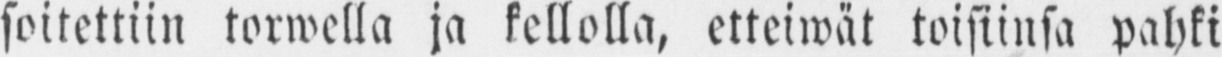soitettiin torwella ja kellolla, etteiwät toisiinsa pahki
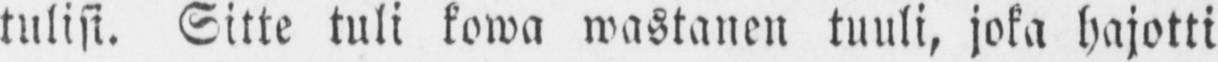tulisi. Sitte tuli kowa wastanen tuuli, joka hajotti
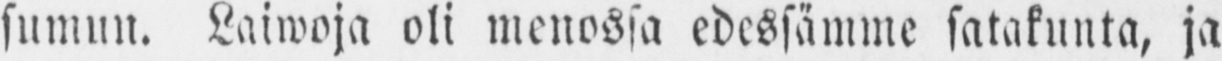sumun. Laiwoja oli menossa edessämme satakunta, ja
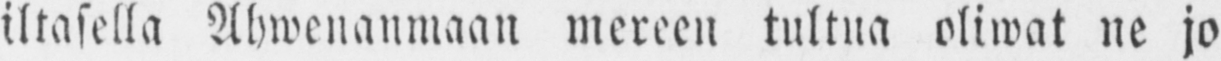iltasella Ahwenanmaan mereen tultua oliwat ne jo
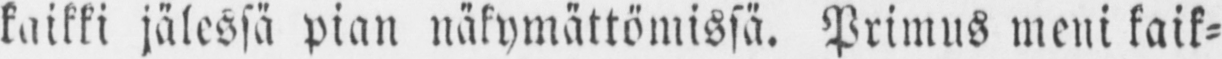kaikki jälessä pian näkymättömissä. Primus meni kaik-
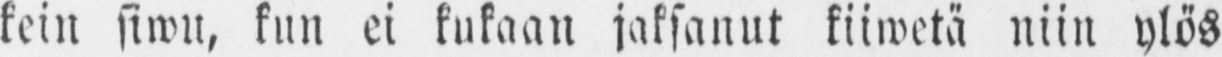kein siwu, kun ei kukaan jaksanut kiiwetä niin ylös
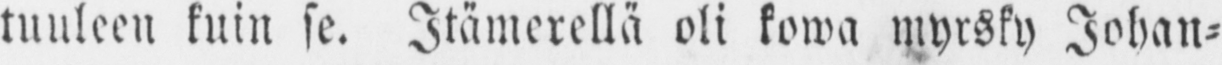tuuleen kuin se. Itämerellä oli kowa myrsky Johan-
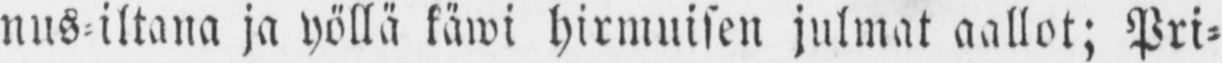nus-iltana ja yöllä käwi hirmuisen julmat aallot; Pri-
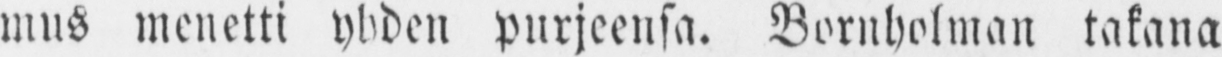mus menetti yhden purjeensa. Bornholman takana
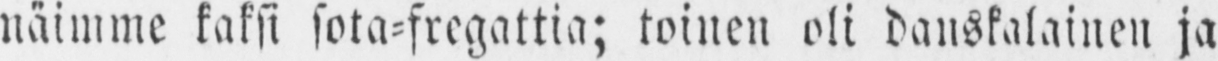näimme kaksi sota-fregattia; toinen oli danskalainen ja
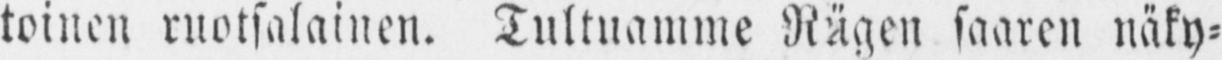toinen ruotsalainen. Tultuamme Rägen saaren näky-
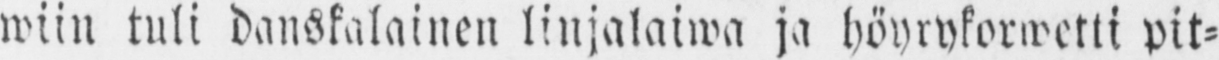wiin tuli danskalainen linjalaiwa ja höyrykorwetti pit-
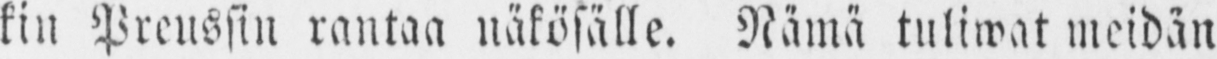kin Preussin rantaa näkösälle. Nämä tuliwat meidän
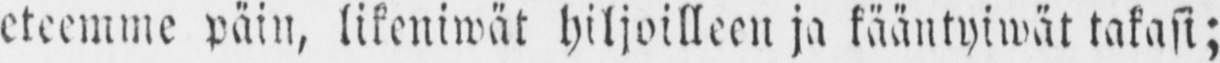eteemme päin, likeniwät hiljoilleen ja kääntyiwät takasi;
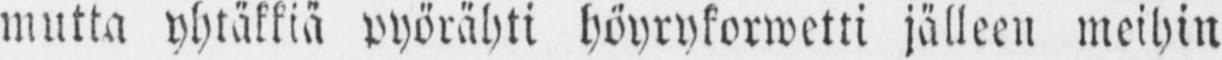mutta yhtäkkiä pyörähti höyrykorwetti jälleen meihin
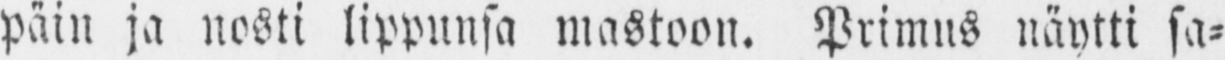päin ja nosti lippunsa mastoon. Primus näytti sa-
